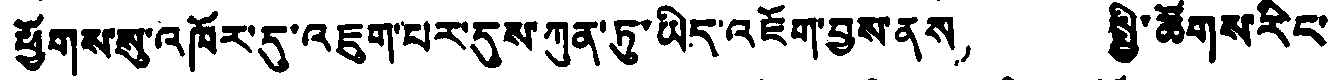ཕྱོགས་སུ་འཁོར་དུ་འཇུག་པར་དུས་ཀུན་ཏུ་ཡིད་འཇོག་བྱས་ནས， སྤྱི་ཚོགས་རིང་
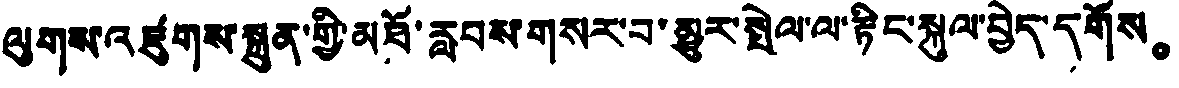ལུགས་འཛུགས་སྐྲུན་གྱི་མཐོ་རླབས་གསར་བ་མྱུར་སྤེལ་ལ་རྟིང་སྐུལ་བྱེད་དགོས。
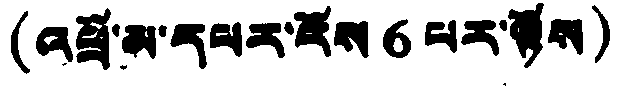(འཕྲོ་མ་དཔར་རོས 6 པར་ལྟོས)
